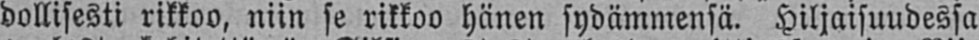dollisesti rikkoo, niin se rikkoo hänen sydämmensä. Hiljaisuudessa
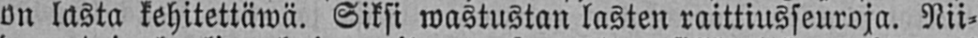on lasta kehitettäwä. Siksi wastustan lasten raittiusseuroja. Nii-
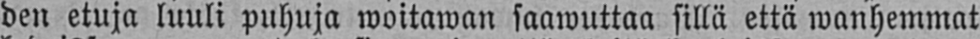den etuja luuli puhuja woitawan saawuttaa sillä että wanhemmat
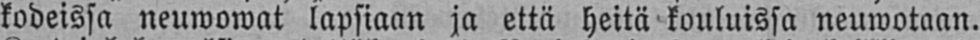kodeissa neuwowat lapsiaan ja että heitä kouluissa neuwotaan.
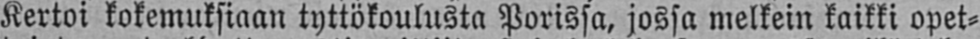Kertoi kokemuksiaan tyttökoulusta Porissa, jossa melkein kaikki opet-
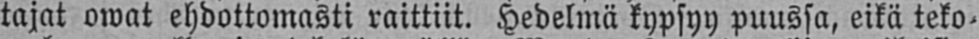tajat owat ehdottomasti raittiit. Hedelmä kypsyy puussa, eikä teko-
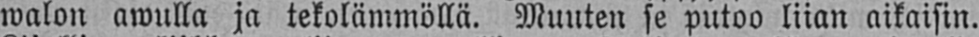walon awulla ja tekolämmöllä. Muuten se putoa liian aikaisin.
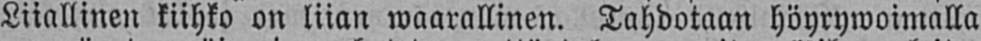Liiallinen kiihko on liian waarallinen. Tahdotaan höyrywoimalla
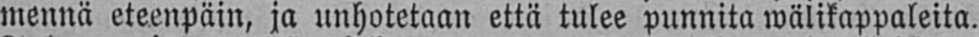mennä eteenpäin, ja unhotetaan että tulee punnita wälikappaleita.
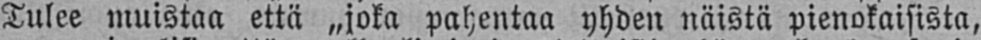Tulee muistaa että „joka pahentaa yhden näistä pienokaisista,
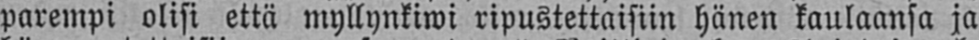parempi olisi että myllynkiwi ripustettaisiin hänen kaulaansa ja
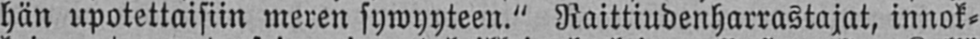hän upotettaisiin meren sywyyteen." Raittiudenharrastajat, innok-
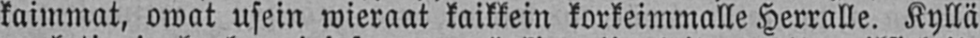kaimmat, owat usein wieraat kaikkein korkeimmalle Herralle. Kyllä
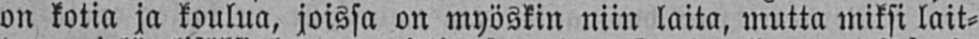on kotia ja koulua, joissa on myöskin niin laita, mutta miksi lait-
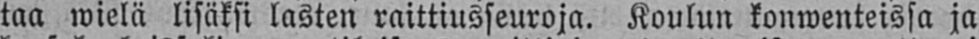taa wielä lisäksi lasten raittiusseuroja. Koulun konwenteissa ja
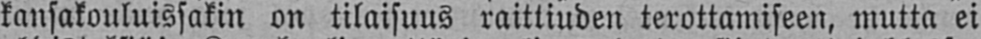kansakouluissakin on tilaisuus raittiuden terottamiseen, mutta ei
